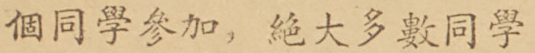個同學參加，絕對大多數同學
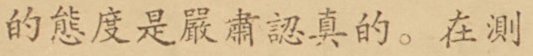的態度是嚴肅認真的。在測
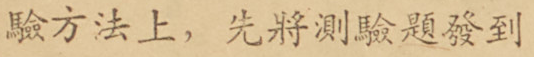驗方法上，先將測驗題發到
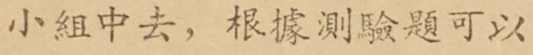小組中去，根據測驗題可以
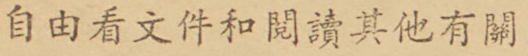自由看文件和閱讀其他有關
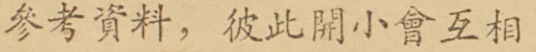參考資料，彼此開小會互相
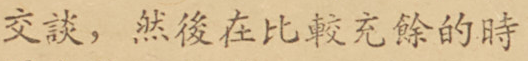交談，然後在比較充餘的時
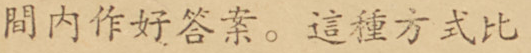間內作好答案。這種方式比
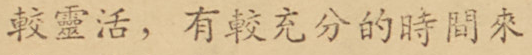較靈活，有較充分的時間來
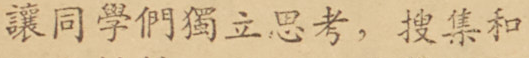讓同學們獨立思考，搜集和
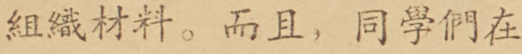組織材料。而且，同學們在
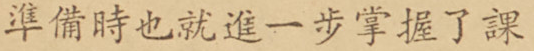準備時也就進一步掌握了課
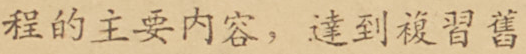程的主要內容，達到複習舊
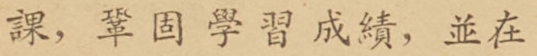課，鞏固學習成績，並在
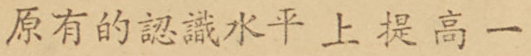原有的認識水平上提高一
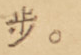步。
